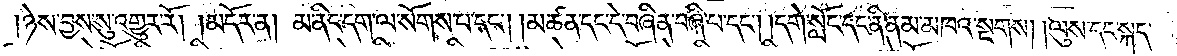།ཉེས་བྱས་སུ་འགྱུར་རོ། །མདོར་ན། མ་ནིང་དག་ལ་སོགས་པ་དང༌། །མཚན་དང་དེ་བཞིན་བཞི་པ་དང༌། །དགེ་སློང་དང་ནི་ནམ་མཁའ་སྔགས། །ལུས་དང་སྐད་
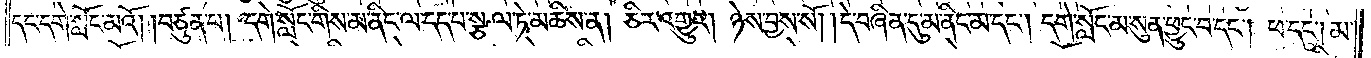དང་དགེ་སློང་མའོ། །བཙུན་པ། དགེ་སློང་གིས་མ་ནིང་ལ་དད་པ་སྩལ་ཏེ་མཆིས་ན། ཅིར་འགྱུར། ཉེས་བྱས་སོ། །དེ་བཞིན་དུ་མ་ནིང་མ་དང༌། དགེ་སློང་མ་སུན་ཕྱུང་བ་དང༌། ཕ་དང༌། མ་
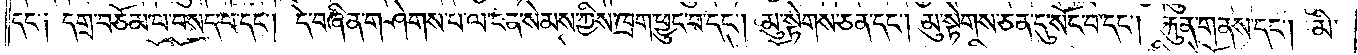དང་༑ དགྲ་བཅོམ་པ་བསད་པ་དང༌། དེ་བཞིན་གཤེགས་པ་ལ་ངན་སེམས་ཀྱིས་ཁྲག་ཕྱུང་བ་དང༌། མུ་སྟེགས་ཅན་དང༌། མུ་སྟེགས་ཅན་དུ་སོང་བ་དང༌། རྐུན་གནས་དང༌། མི་
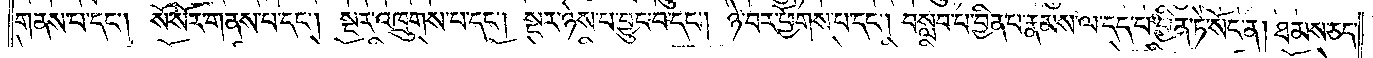གནས་པ་དང༌། སོ་སོར་གནས་པ་དང༌། སྔར་འཁྲུགས་པ་དང༌། སྔར་ཉེས་པ་བྱུང་བ་དང༌། ཉེ་བར་ཕྱོགས་པ་དང༌། བསླབ་པ་བྱིན་པ་རྣམས་ལ་དད་པ་བྱིན་ཏེ་སོང་ན། ཐམས་ཅད་
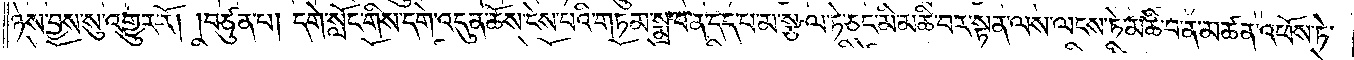ཉེས་བྱས་སུ་འགྱུར་རོ། །བཙུན་པ། དགེ་སློང་གིས་དགེ་འདུན་ཆོས་ངེས་པའི་གཏམ་སྨྲ་བ་ན་དད་པ་མ་སྩལ་ཏེ་ཅང་མི་མཆི་བར་སྟན་ལས་ལངས་ཏེ་མཆི་བ་ན་མཚན་འཕོས་ཏེ་
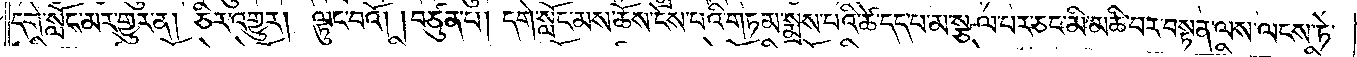དགེ་སློང་མར་གྱུར་ན། ཅིར་འགྱུར། ལྟུང་བའོ། །བཙུན་པ། དགེ་སློང་མས་ཆོས་ངེས་པའི་གཏམ་སྨྲས་པའི་ཚེ་དད་པ་མ་སྩལ་པར་ཅང་མི་མཆི་བར་བསྟན་ལས་ལངས་ཏེ་
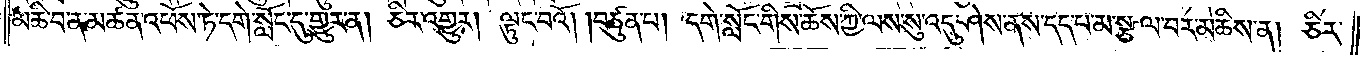མཆི་བ་ན་མཚན་འཕོས་ཏེ་དགེ་སློང་དུ་གྱུར་ན། ཅིར་འགྱུར། ལྟུང་བའོ། །བཙུན་པ། དགེ་སློང་གིས་ཆོས་ཀྱི་ལས་སུ་འདུ་ཤེས་ནས་དད་པ་མ་སྩལ་བར་མཆིས་ན། ཅིར་
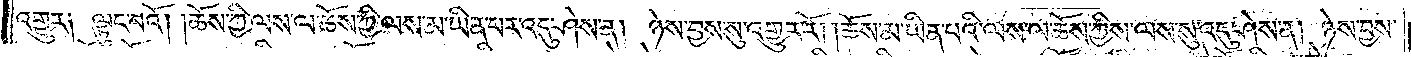འགྱུར༑ ལྟུང་བའོ། །ཆོས་ཀྱི་ལས་ལ་ཆོས་ཀྱི་ལས་མ་ཡིན་པར་འདུ་ཤེས་ན། ཉེས་བྱས་སུ་འགྱུར་རོ། །ཆོས་མ་ཡིན་པའི་ལས་ལ་ཆོས་ཀྱིས་ལས་སུ་འདུ་ཤེས་ན། ཉེས་བྱས་
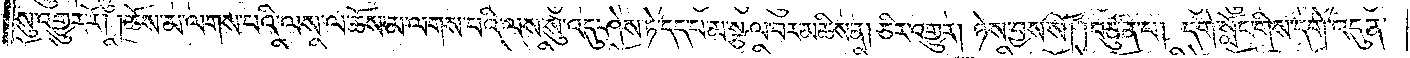སུ་འགྱུར་རོ། །ཆོས་མ་ལགས་པའི་ལས་ལ་ཆོས་མ་ལགས་པའི་ལས་སུ་འདུ་ཤེས་ཏེ་དད་པ་མ་སྩལ་བར་མཆིས་ན། ཅིར་འགྱུར། ཉེས་བྱས་སོ། །བཙུན་པ། དགེ་སློང་གིས་དགེ་འདུན་
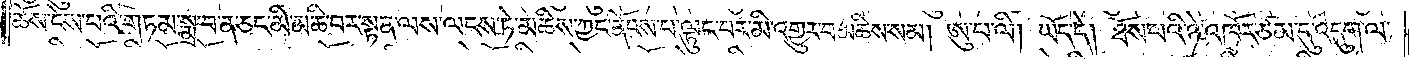ཆོས་ངེས་པའི་གཏམ་སྨྲ་བ་ན་ཅང་མི་མཆི་བར་སྟན་ལས་ལངས་ཏེ་མཆིས་ཀྱང་ནོངས་པ་ལྟུང་བར་མི་འགྱུར་བ་མཆིས་སམ། ཨུ་པ་ལི། ཡོད་དེ། ཐོས་པའི་ཉེ་འཁོར་ཙམ་དུ་འདུག་ལ་
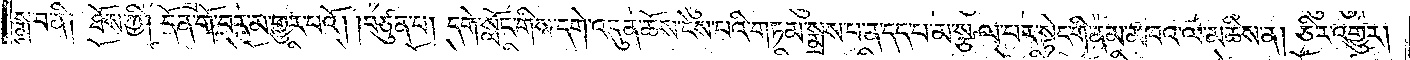སྨྲ་བ་ནི༑ ཐོས་ཀྱི། དོན་གོ་བར་མ་གྱུར་པའོ། །བཙུན་པ། དགེ་སློང་གིས་དགེ་འདུན་ཆོས་ངེས་པའི་གཏམ་སྨྲས་པ་ན་དད་པ་མ་སྩལ་པར་སྟེང་གི་ནམ་མཁའ་ལ་མཆིས་ན། ཅིར་འགྱུར།
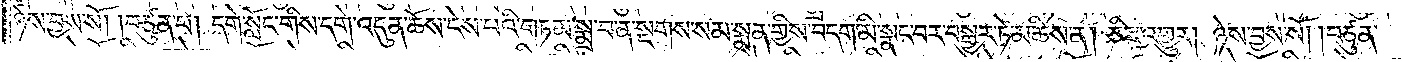ཉེས་བྱས་སོ། །བཙུན་པ། དགེ་སློང་གིས་དགེ་འདུན་ཆོས་ངེས་པའི་གཏམ་སྨྲ་བ་ན་སྔགས་སམ་སྨན་གྱིས་བདག་མི་སྣང་བར་བསྒྱུར་ཏེ་མཆིས་ན། ཅིར་འགྱུར། ཉེས་བྱས་སོ། །བཙུན་
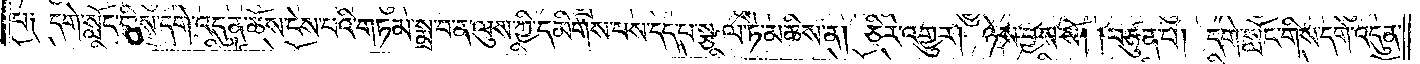པ༑ དགེ་སློང་གིས་དགེ་འདུན་ཆོས་ངེས་པའི་གཏམ་སྨྲ་བ་ན་ལུས་ཀྱི་དམིགས་པས་དད་པ་སྩལ་ཏེ་མཆིས་ན། ཅིར་འགྱུར། ཉེས་བྱས་སོ། །བཙུན་པ། དགེ་སློང་གིས་དགེ་འདུན་
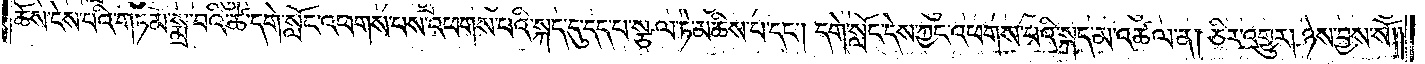ཆོས་ངེས་པའི་གཏམ་སྨྲ་བའི་ཚེ་དགེ་སློང་འཕགས་པས་འཕགས་པའི་སྐད་དུ་དད་པ་སྩལ་ཏེ་མཆིས་པ་དང༌། དགེ་སློང་དེས་ཀྱང་འཕགས་པའི་སྐད་མ་འཚལ་ན། ཅིར་འགྱུར། ཉེས་བྱས་སོ༎
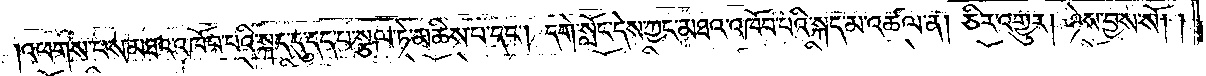འཕགས་པས་མཐའ་འཁོབ་པའི་སྐད་དུ་དད་པ་སྩལ་ཏེ་མཆིས་པ་དང༌། དགེ་སློང་དེས་ཀྱང་མཐའ་འཁོབ་པའི་སྐད་མ་འཚལ་ན། ཅིར་འགྱུར། ཉེས་བྱས་སོ། །
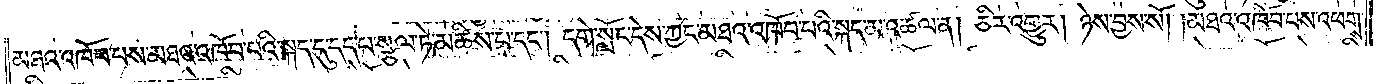མཐའ་འཁོབ་པས་མཐའ་འཁོབ་པའི་སྐད་དུ་དད་པ་སྩལ་ཏེ་མཆིས་པ་དང༌། དགེ་སློང་དེས་ཀྱང་མཐའ་འཁོབ་པའི་སྐད་མ་འཚལ་ན། ཅིར་འགྱུར། ཉེས་བྱས་སོ། །མཐའ་འཁོབ་པས་འཕགས་
